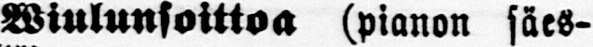Wiulunsoittoa (pianon säes-
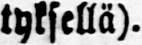tyksellä).
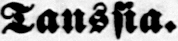Tanssia.
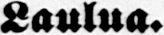Laulua.
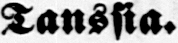Taussia.
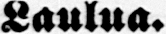Laulua.
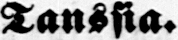Tanssia.
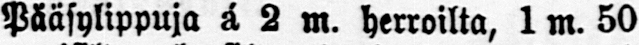Pääsylippuja á 2 m. herroilta, 1 m. 50
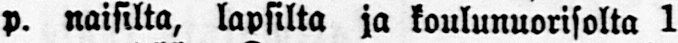p. naisilta, lapsilta ja koulunuorisolta 1
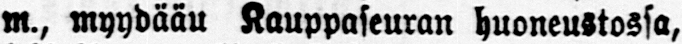m., myydääu Kauppaseuran huoneustossa,
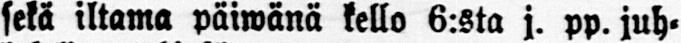sekä iltama päiwänä kello 6:sta j. pp. juh-
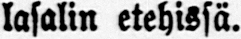lasalin etehissä.
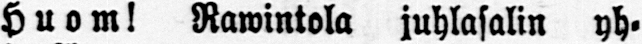Huom! Rawintola juhlasalin yh-
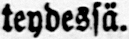teydessä.
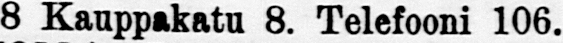8 Kauppakatu 8. Telesfooni 106.
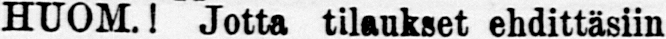HU0 M.! Jotta tilaukset ehdittäsiin
